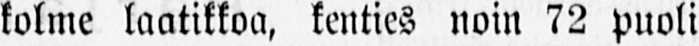kolme laatikkoa, kenties noin 72 puoli
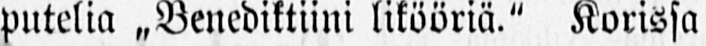putelia ˶Benediktiini likööriä." Korissa
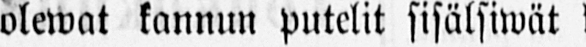olewat kannun putelit sisälsiwät konjak-
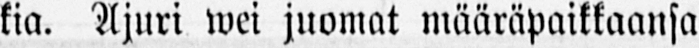kia. Ajuri wei juomat määräpaikkaansa
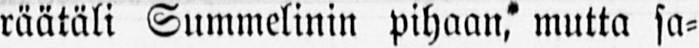räätäli Summelinin pihaan, mutta sa-
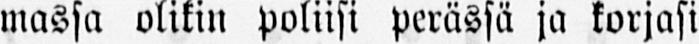massa olikin Poliisi perässä ja korjasi
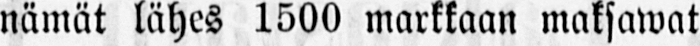nämät lähes 1500 markkaan maksawat
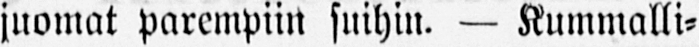juomat parempiin suihin. — Kummalli-
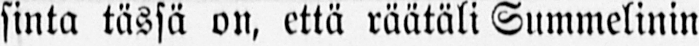sinta tässä on, että räätäli Summelinin
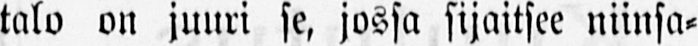talo on juuri se, jossa sijaitsee niinsa-
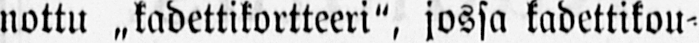nottu „kadettikortteeri", jossa kadettikou-
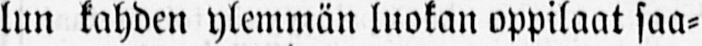lun kahden ylemmän luokan oppilaat saa-
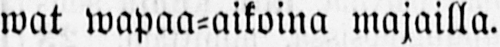wat wapaa-aikoina majailla.
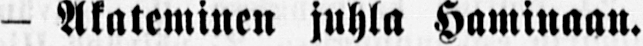— Akateminen juhla Haminaan.
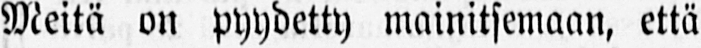Meitä on pyydetty mainitsemaan, että
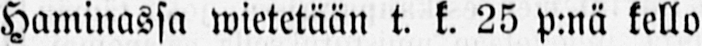Haminassa wietetään t. k. 25 p:nä kello
